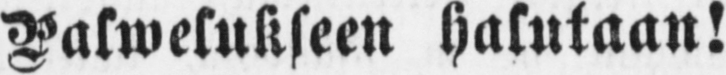Palwelukseen halutaan!
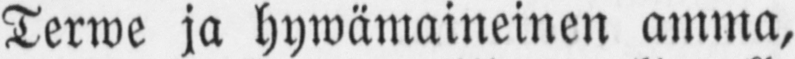Terwe ja hywämaineinen amma,
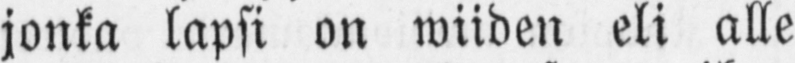jonka lapsi on wiiden eli alle
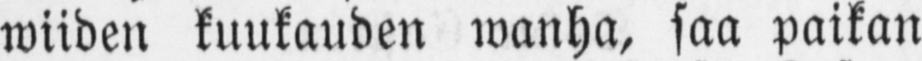wiiden kuukauden wanha, saa paikan
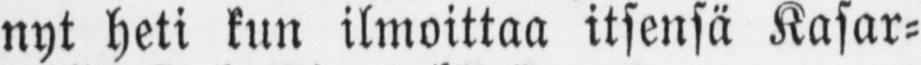nyt heti kun ilmoittaa itsensä Kasar-
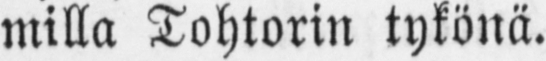milla Tohtorin tykönä.
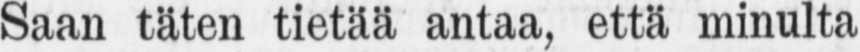Saan täten tietää antaa, että minulta
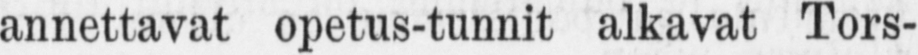annettavat opetus-tunnit alkavat Tors-
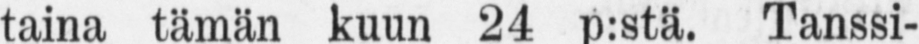taina tämän kuun 24 p:stä. Tanssi-
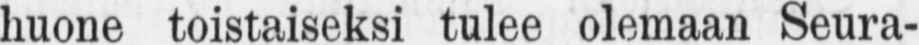huone toistaiseksi tulee olemaan Seura-
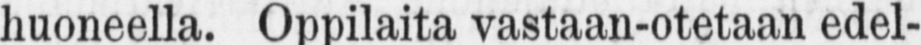huoneella. Oppilaita vastaan-otetaan edel-
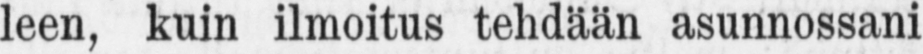leen, kuin ilmoitus tehdään asunnossani
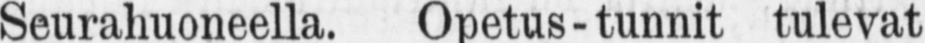Seurahuoneella. Opetus-tunnit tulevat
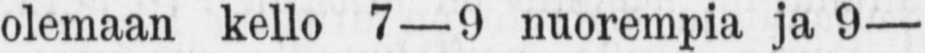olemaan kello 7—9 nuorempia ja 9—
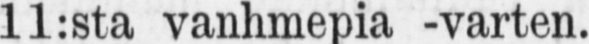11:sta vanhmepia -varten.
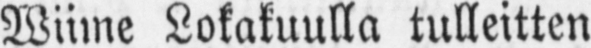Wiime Lokakuulla tulleitten
